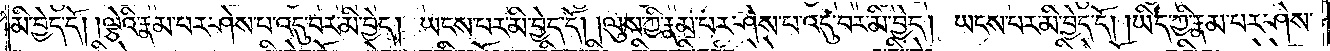མི་བྱེད་དོ། །ལྕེའི་རྣམ་པར་ཤེས་པ་འདུ་བར་མི་བྱེད། ཡངས་པར་མི་བྱེད་དོ། །ལུས་ཀྱི་རྣམ་པར་ཤེས་པ་འདུ་བར་མི་བྱེད། ཡངས་པར་མི་བྱེད་དོ། །ཡིད་ཀྱི་རྣམ་པར་ཤེས་
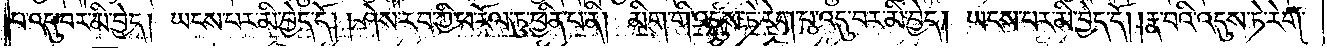པ་འདུ་བར་མི་བྱེད། ཡངས་པར་མི་བྱེད་དོ། །ཤེས་རབ་ཀྱི་ཕ་རོལ་ཏུ་ཕྱིན་པ་ནི། མིག་གི་འདུས་ཏེ་རེག་པ་འདུ་བར་མི་བྱེད། ཡངས་པར་མི་བྱེད་དོ། །རྣ་བའི་འདུས་ཏེ་རེག་
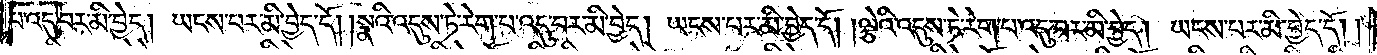པ་འདུ་བར་མི་བྱེད། ཡངས་པར་མི་བྱེད་དོ། །སྣའི་འདུས་ཏེ་རེག་པ་འདུ་བར་མི་བྱེད། ཡངས་པར་མི་བྱེད་དོ། །ལྕེའི་འདུས་ཏེ་རེག་པ་འདུ་བར་མི་བྱེད། ཡངས་པར་མི་བྱེད་དོ། །
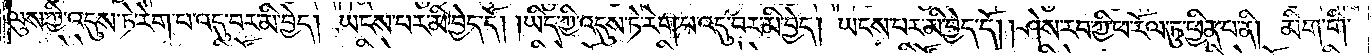ལུས་ཀྱི་འདུས་ཏེ་རེག་པ་འདུ་བར་མི་བྱེད། ཡངས་པར་མི་བྱེད་དོ། །ཡིད་ཀྱི་འདུས་ཏེ་རེག་པ་འདུ་བར་མི་བྱེད། ཡངས་པར་མི་བྱེད་དོ། །ཤེས་རབ་ཀྱི་ཕ་རོལ་ཏུ་ཕྱིན་པ་ནི། མིག་གི་
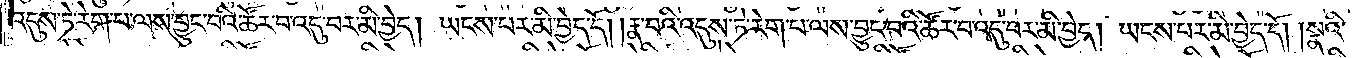འདུས་ཏེ་རེག་པ་ལས་བྱུང་བའི་ཚོར་བ་འདུ་བར་མི་བྱེད། ཡངས་པར་མི་བྱེད་དོ། །རྣ་བའི་འདུས་ཏེ་རེག་པ་ལས་བྱུང་བའི་ཚོར་བ་འདུ་བར་མི་བྱེད། ཡངས་པར་མི་བྱེད་དོ། །སྣའི་
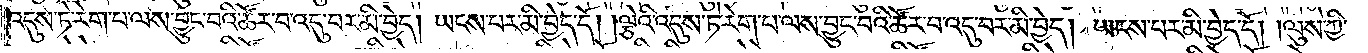འདུས་ཏེ་རེག་པ་ལས་བྱུང་བའི་ཚོར་བ་འདུ་བར་མི་བྱེད། ཡངས་པར་མི་བྱེད་དོ། །ལྕེའི་འདུས་ཏེ་རེག་པ་ལས་བྱུང་བའི་ཚོར་བ་འདུ་བར་མི་བྱེད། ཡངས་པར་མི་བྱེད་དོ། །ལུས་ཀྱི་
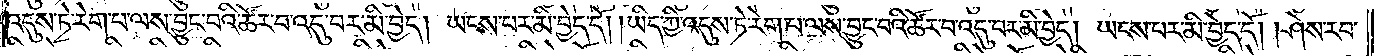འདུས་ཏེ་རེག་པ་ལས་བྱུང་བའི་ཚོར་བ་འདུ་བར་མི་བྱེད། ཡངས་པར་མི་བྱེད་དོ། །ཡིད་ཀྱི་འདུས་ཏེ་རེག་པ་ལས་བྱུང་བའི་ཚོར་བ་འདུ་བར་མི་བྱེད། ཡངས་པར་མི་བྱེད་དོ། །ཤེས་རབ་
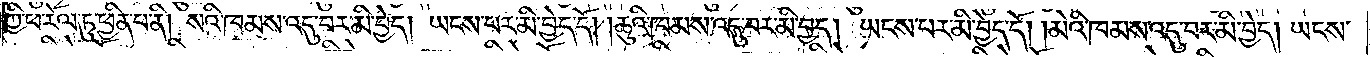ཀྱི་ཕ་རོལ་ཏུ་ཕྱིན་པ་ནི། སའི་ཁམས་འདུ་བར་མི་བྱེད། ཡངས་པར་མི་བྱེད་དོ། །ཆུའི་ཁམས་འདུ་བར་མི་བྱེད། ཡངས་པར་མི་བྱེད་དོ། །མེའི་ཁམས་འདུ་བར་མི་བྱེད། ཡངས་
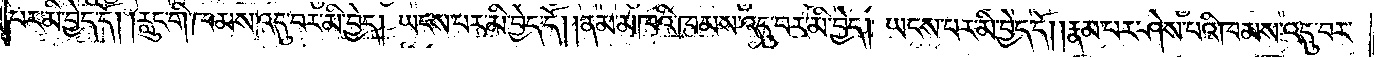པར་མི་བྱེད་དོ། །རླུང་གི་ཁམས་འདུ་བར་མི་བྱེད། ཡངས་པར་མི་བྱེད་དོ། །ནམ་མཁའི་ཁམས་འདུ་བར་མི་བྱེད། ཡངས་པར་མི་བྱེད་དོ། །རྣམ་པར་ཤེས་པའི་ཁམས་འདུ་བར་
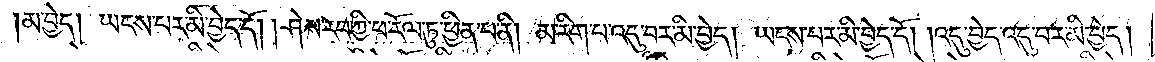མི་བྱེད། ཡངས་པར་མི་བྱེད་དོ། །ཤེས་རབ་ཀྱི་ཕ་རོལ་ཏུ་ཕྱིན་པ་ནི། མ་རིག་པ་འདུ་བར་མི་བྱེད། ཡངས་པར་མི་བྱེད་དོ། །འདུ་བྱེད་འདུ་བར་མི་བྱེད།
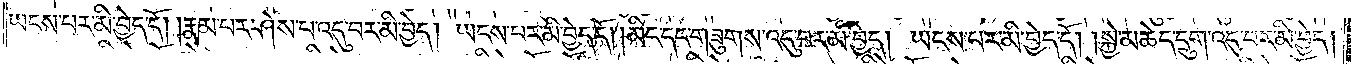ཡངས་པར་མི་བྱེད་དོ། །རྣམ་པར་ཤེས་པ་འདུ་བར་མི་བྱེད། ཡངས་པར་མི་བྱེད་དོ། །མིང་དང་གཟུགས་འདུ་བར་མི་བྱེད། ཡངས་པར་མི་བྱེད་དོ། །སྐྱེ་མཆེད་དྲུག་འདུ་བར་མི་བྱེད།
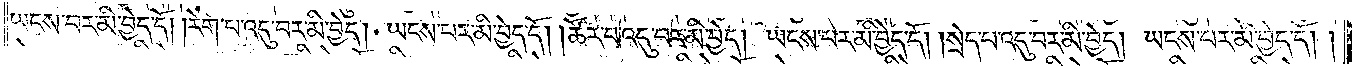ཡངས་པར་མི་བྱེད་དོ། །རེག་པ་འདུ་བར་མི་བྱེད། ཡངས་པར་མི་བྱེད་དོ། །ཚོར་བ་འདུ་བར་མི་བྱེད། ཡངས་པར་མི་བྱེད་དོ། །སྲེད་པ་འདུ་བར་མི་བྱེད། ཡངས་པར་མི་བྱེད་དོ། །
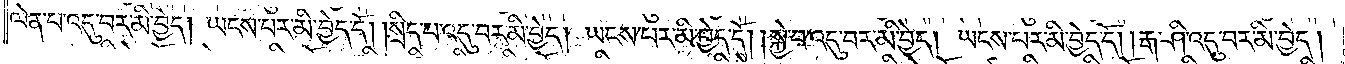ལེན་པ་འདུ་བར་མི་བྱེད། ཡངས་པར་མི་བྱེད་དོ། །སྲིད་པ་འདུ་བར་མི་བྱེད། ཡངས་པར་མི་བྱེད་དོ། །སྐྱེ་བ་འདུ་བར་མི་བྱེད། ཡངས་པར་མི་བྱེད་དོ། །རྒ་ཤི་འདུ་བར་མི་བྱེད།
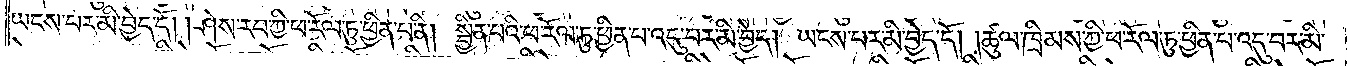ཡངས་པར་མི་བྱེད་དོ། །ཤེས་རབ་ཀྱི་ཕ་རོལ་ཏུ་ཕྱིན་པ་ནི། སྦྱིན་པའི་ཕ་རོལ་ཏུ་ཕྱིན་པ་འདུ་བར་མི་བྱེད། ཡངས་པར་མི་བྱེད་དོ། །ཚུལ་ཁྲིམས་ཀྱི་ཕ་རོལ་ཏུ་ཕྱིན་པ་འདུ་བར་མི་
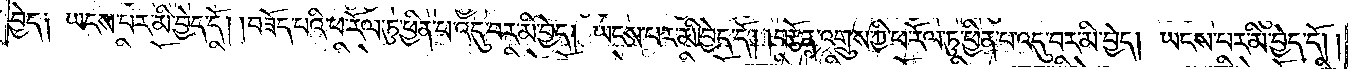བྱེད༑ ཡངས་པར་མི་བྱེད་དོ། །བཟོད་པའི་ཕ་རོལ་ཏུ་ཕྱིན་པ་འདུ་བར་མི་བྱེད། ཡངས་པར་མི་བྱེད་དོ། །བརྩོན་འགྲུས་ཀྱི་ཕ་རོལ་ཏུ་ཕྱིན་པ་འདུ་བར་མི་བྱེད། ཡངས་པར་མི་བྱེད་དོ། །
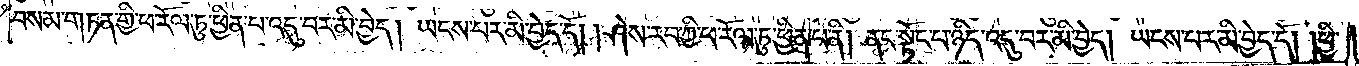བསམ་གཏན་གྱི་ཕ་རོལ་ཏུ་ཕྱིན་པ་འདུ་བར་མི་བྱེད། ཡངས་པར་མི་བྱེད་དོ། །ཤེས་རབ་ཀྱི་ཕ་རོལ་ཏུ་ཕྱིན་པ་ནི། ནང་སྟོང་པ་ཉིད་འདུ་བར་མི་བྱེད། ཡངས་པར་མི་བྱེད་དོ། །ཕྱི་
